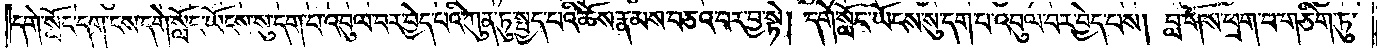དགེ་སློང་དག་ངས་དགེ་སློང་ཡོངས་སུ་དག་པ་འབུལ་བར་བྱེད་པའི་ཀུན་ཏུ་སྤྱད་པའི་ཆོས་རྣམས་བཅའ་བར་བྱ་སྟེ། དགེ་སློང་ཡོངས་སུ་དག་པ་འབུལ་བར་བྱེད་པས། བླ་གོས་ཕྲག་པ་གཅིག་ཏུ་
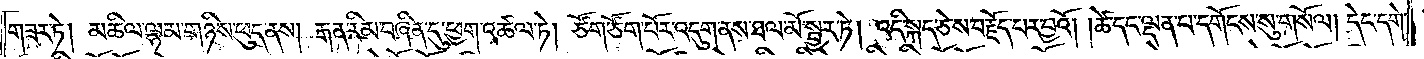གཟར་ཏེ། མཆིལ་ལྷམ་གཉིས་ཕུད་ནས། རྒན་རིམ་བཞིན་དུ་ཕྱག་འཚལ་ཏེ། ཙོག་ཙོག་པོར་འདུག་ནས་ཐལ་མོ་སྦྱར་ཏེ། འདི་སྐད་ཅེས་བརྗོད་པར་བྱའོ། །ཚེ་དང་ལྡན་པ་དགོངས་སུ་གསོལ། དེང་དགེ་
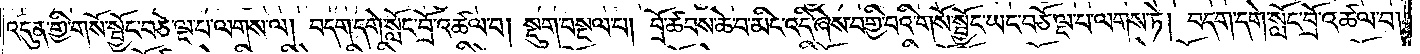འདུན་གྱི་གསོ་སྦྱོང་བཅོ་ལྔ་པ་ལགས་ལ། བདག་དགེ་སློང་བྲོ་འཚལ་བ། སྡུག་བསྔལ་པ། བྲོ་ཚབས་ཆེ་བ་མིང་འདི་ཞེས་བགྱི་བའི་གསོ་སྦྱོང་ཡང་བཅོ་ལྔ་པ་ལགས་ཏེ། བདག་དགེ་སློང་བྲོ་འཚལ་བ།
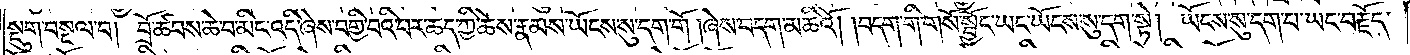སྡུག་བསྔལ་བ། བྲོ་ཚབས་ཆེ་བ་མིང་འདི་ཞེས་བགྱི་བའི་བར་ཆད་ཀྱི་ཆོས་རྣམས་ཡོངས་སུ་དག་གོ །ཞེས་བདག་མཆིའོ། །བདག་གི་གསོ་སྦྱོང་ཡང་ཡོངས་སུ་དག་སྟེ། ཡོངས་སུ་དག་པ་ཡང་བརྗོད་
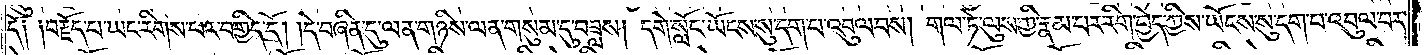དོ༏ ༏བརྗོད་པ་ཡང་རིགས་པར་བགྱིད་དོ། །དེ་བཞིན་དུ་ལན་གཉིས་ལན་གསུམ་དུ་བཟླས། དགེ་སློང་ཡོངས་སུ་དག་པ་འབུལ་བས། གལ་ཏེ་ལུས་ཀྱི་རྣམ་པར་རིག་བྱེད་ཀྱིས་ཡོངས་སུ་དག་པ་འབུལ་བར་
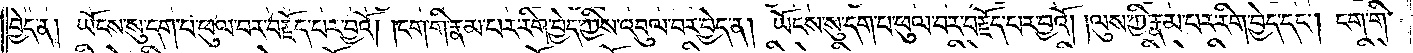བྱེད་ན། ཡོངས་སུ་དག་པ་ཕུལ་བར་བརྗོད་པར་བྱའོ། །ངག་གི་རྣམ་པར་རིག་བྱེད་ཀྱིས་འབུལ་བར་བྱེད་ན། ཡོངས་སུ་དག་པ་ཕུལ་བར་བརྗོད་པར་བྱའོ། །ལུས་ཀྱི་རྣམ་པར་རིག་བྱེད་དང༌། ངག་གི་
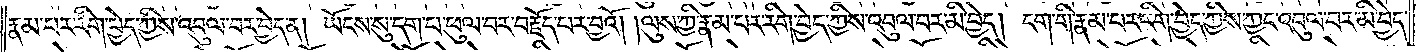རྣམ་པར་རིག་བྱེད་ཀྱིས་འབུལ་བར་བྱེད་ན།  ཡོངས་སུ་དག་པ་ཕུལ་བར་བརྗོད་པར་བྱའོ། །ལུས་ཀྱི་རྣམ་པར་རིག་བྱེད་ཀྱིས་འབུལ་བར་མི་བྱེད། ངག་གི་རྣམ་པར་རིག་བྱེད་ཀྱིས་ཀྱང་འབུལ་བར་མི་བྱེད་
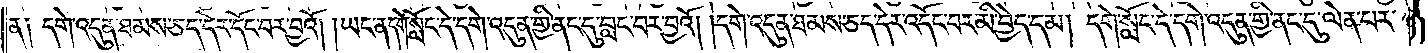ན༏ དགེ་འདུན་ཐམས་ཅད་དེར་དོང་བར་བྱའོ། །ཡང་ན་དགེ་སློང་དེ་དགེ་འདུན་གྱི་ནང་དུ་བླང་བར་བྱའོ། །དགེ་འདུན་ཐམས་ཅད་དེར་འདོང་བར་མི་བྱེད་དམ། དགེ་སློང་དེ་དགེ་འདུན་གྱི་ནང་དུ་ལེན་པར་
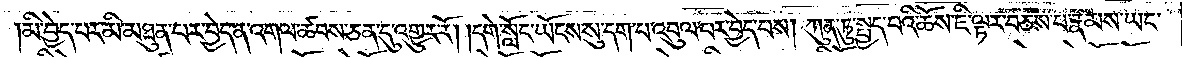མི་བྱེད་པར་མི་མཐུན་པར་བྱེད་ན་འགལ་ཚབས་ཅན་དུ་འགྱུར་རོ། །དགེ་སློང་ཡོངས་སུ་དག་པ་འབུལ་བར་བྱེད་པས། ཀུན་ཏུ་སྤྱད་བའི་ཆོས་ཇི་ལྟར་བཅས་པ་རྣམས་ཡང་
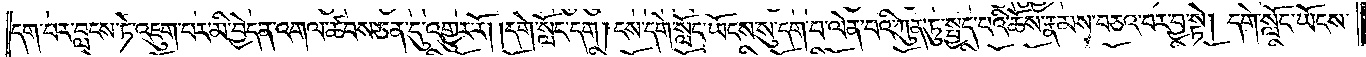དག་པར་བླངས་ཏེ་འཇུག་པར་མི་བྱེད་ན་འགལ་ཚབས་ཅན་དུ་འགྱུར་རོ། །དགེ་སློང་དག། ངས་དགེ་སློང་ཡོངས་སུ་དག་པ་ལེན་བའི་ཀུན་ཏུ་སྤྱད་པའི་ཆོས་རྣམས་བཅའ་བར་བྱ་སྟེ། དགེ་སློང་ཡོངས་
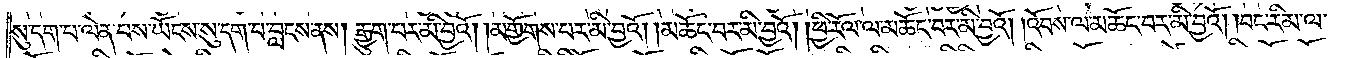སུ་དག་པ་ལེན་པས་ཡོངས་སུ་དག་པ་བླངས་ནས། རྒྱུག་པར་མི་བྱའོ། །མགྱོགས་པར་མི་བྱའོ། །མཆོང་བར་མི་བྱའོ། །ཕྱི་རོལ་ལ་མཆོང་བར་མི་བྱའོ། །འོབས་ལ་མཆོང་བར་མི་བྱའོ། །བང་རིམ་ལ་
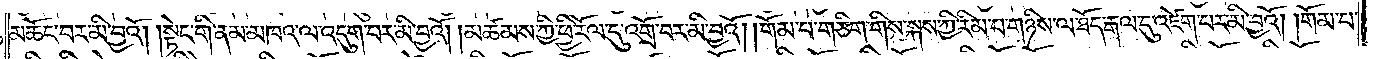མཆོང་བར་མི་བྱའོ། །སྟེང་གི་ནམ་མཁའ་ལ་འདུག་བར་མི་བྱའོ། །མཚམས་ཀྱི་ཕྱི་རོལ་ཏུ་འགྲོ་བར་མི་བྱའོ། །གོམ་པ་གཅིག་གིས་སྐས་ཀྱི་རིམ་པ་གཉིས་ལ་ཐོད་རྒལ་དུ་འཛེག་པར་མི་བྱའོ། །གོམ་པ་
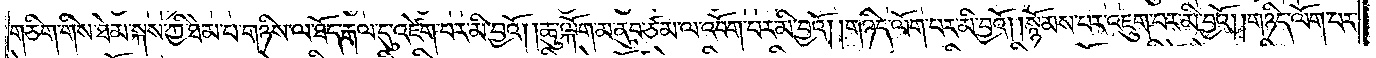གཅིག་གིས་ཐེམ་སྐས་ཀྱི་ཐེམ་པ་གཉིས་ལ་ཐོད་རྒལ་དུ་འཛེག་པར་མི་བྱའོ། །ཆུ་ལྐོག་མ་ནུབ་ཙམ་ལ་འབོག་པར་མི་བྱའོ། །གཉིད་ལོག་པར་མི་བྱའོ། །སྙོམས་པར་འཇུག་པར་མི་བྱའོ། །གཉིད་ལོག་པར་
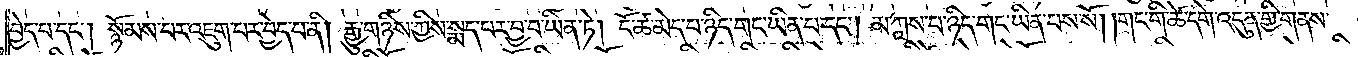བྱེད་པ་དང༌། སྙོམས་པར་འཇུག་པར་བྱེད་པ་ནི། རྒྱུ་གཉིས་ཀྱིས་སྨད་པར་བྱ་བ་ཡིན་ཏེ། ངོ་ཚ་མེད་པ་ཉིད་གང་ཡིན་པ་དང༌། མ་ཀླས་པ་ཉིད་གང་ཡིན་པས་སོ། །གང་གི་ཚེ་དགེ་འདུན་གྱི་གནས་
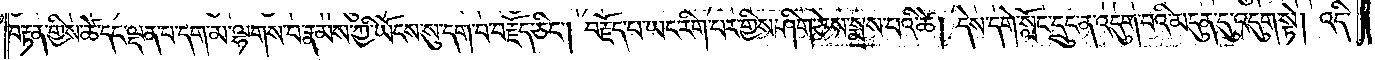བརྟན་གྱིས་ཚེ་དང་ལྡན་པ་དག་མ་ལྷགས་པ་རྣམས་ཀྱི་ཡོངས་སུ་དག་པ་བརྗོད་ཅིང༌། བརྗོད་པ་ཡང་རིག་པར་གྱིས་ཤིག་ཅེས་སྨྲས་པའི་ཚེ། དེས་དགེ་སློང་དྲུང་ན་འདུག་པའི་མདུན་དུ་འདུག་སྟེ། འདི་
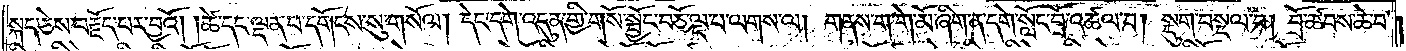སྐད་ཅེས་བརྗོད་པར་བྱའོ། །ཚེ་དང་ལྡན་པ་དགོངས་སུ་གསོལ། དེང་དགེ་འདུན་གྱི་གསོ་སྦྱོང་བཅོ་ལྔ་པ་ལགས་ལ། གནས་ག་གེ་མོ་ཞིག་ན་དགེ་སློང་བྲོ་འཚལ་བ། སྡུག་བསྔལ་བ། བྲོ་ཚབས་ཆེ་བ་
